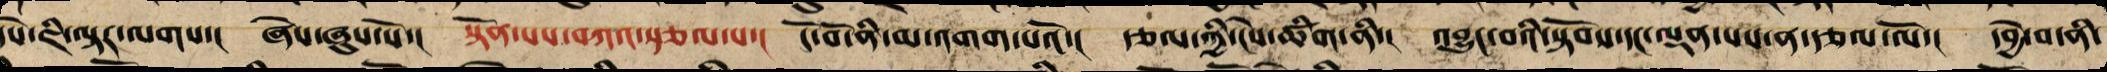དཔེ་ཇི་ལྟར་ལགས་། ཞེས་ཞུས་སོ་། སྟོན་པས་བཀའ་སྩལ་པ་། ངོ་བོ་ནི་མ་འགགས་པའོ་། རྩལ་ཀྱི་ངེས་ཚིག་ནི་། འབྱུང་བའི་སྟོབས་དང་ལྡན་པས་ན་རྩལ་ལོ་། དབྱེ་བ་ནི་
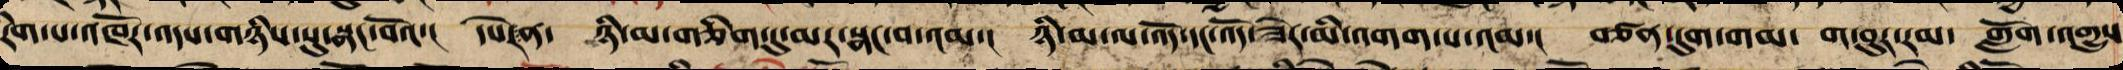རིག་པ་འཁོར་འདས་གཉིས་སུ་སྣང་བའོ་། དཔེར་ན་ ཉི་མ་གཅིག་དུ་མར་སྣང་བ་འམ་། ཉི་མ་ལ་འོད་དང་འོད་ཟེར་མི་འགག་པ་འམ་། བཙན་དུག་གམ་ ག་བུར་རམ་ གློག་འགྱུས་
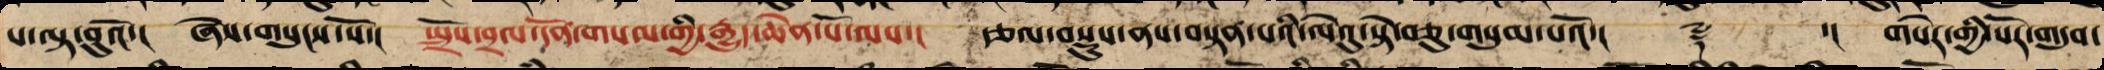པ་ལྟ་བུའོ་། ཞེས་གསུངས་སོ་། སྤྲོས་བྲལ་དོན་གསལ་གྱི་རྒྱུད་ཆེན་པོ་ལས་། རྩལ་བསྡུས་ནས་བསྟན་པའི་ལེའུ་སྟེ་བཅུ་གསུམ་པའོ་།། ༈ ་།། གསེར་གྱི་སོར་གདུབ་
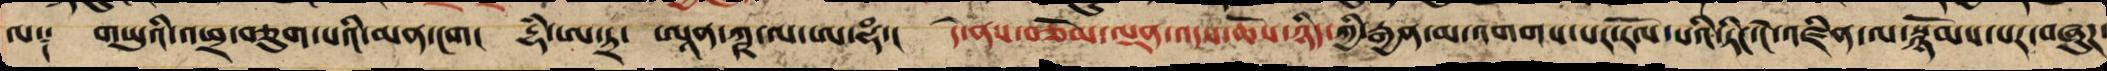ལ༑ གཡུའི་ཕྲ་བཅུག་པའི་མན་ངག། དྷཾ་ཨ་ཏྲ་ ཨཱན་ཀྵ་ལ་ཨ་ཧཾ་། དེ་ནས་བཅོམ་ལྡན་འདས་ཆོས་ཉིད་ཀྱི་རྒྱན་མ་འགགས་པར་རོལ་པའི་ཏིང་ངེ་འཛིན་ལ་སྙོམས་པར་ཞུཌ་
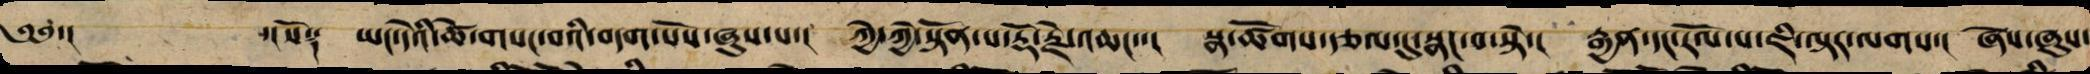༄༅་།  ་།སོ༑ ཡང་དེའི་ཚེ་གསང་བའི་བདག་པོས་ཞུས་པ་། ཀྱེ་ཀྱེ་སྟོན་པ་ཀུན་བཟང་རྡོ་རྗེ་འཆང་་། སྣ་ཚོགས་རྩལ་དུ་སྣང་བ་སྟེ་། རྒྱན་དང་རོལ་པ་ཇི་ལྟར་ལགས་། ཞེས་ཞུས་
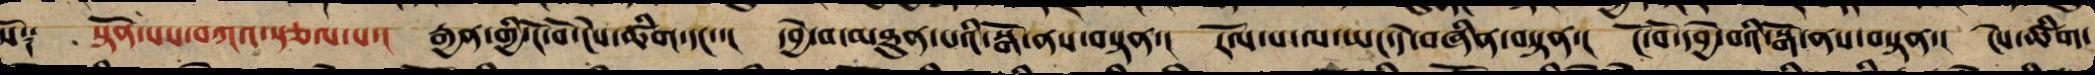སོ༑ སྟོན་པས་བཀའ་སྩལ་པ་། རྒྱན་གྱི་ངོ་བོ་ངེས་ཚིག་དང་་། དབྱེ་བ་མཐུན་པའི་སྒོ་ནས་བསྟན་། རོལ་པ་ལ་ཡང་དེ་བཞིན་བསྟན་། ངོ་བོ་དབྱེ་བའི་སྒོ་ནས་བསྟན་། ངེས་ཚིག་
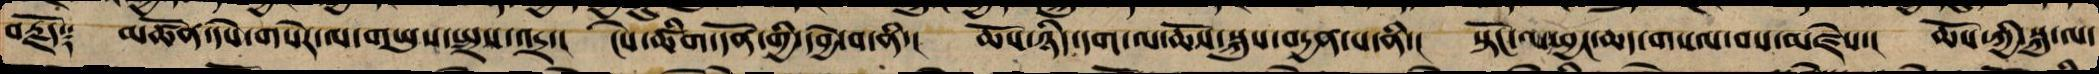བརྗོད༑ མཚོན་དཔེ་གསེར་ལ་གཡུས་སྤྲས་འདྲ་། ངེས་ཚིག་དོན་གྱི་དབྱེ་བ་ནི་། ཆོས་ཉིད་དག་ལ་ཆོས་སྐུས་བདྱན་པ་ནི་། སྟོང་ལ་ཕྱང་ཆད་གསལ་བས་མཛེས་། ཆོས་ཀྱི་སྐུ་ལ་
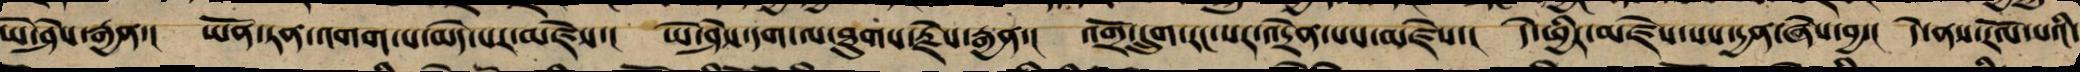ཡེ་ཤེས་རྒྱན་། ཡོན་ཏན་འགག་པ་མེད་པར་མཛེས་། ཡེ་ཤེས་གསལ་ལ་ཐུགས་རྗེས་རྒྱན་། འགྲོ་དྲུག་རང་སར་འདྲེན་པས་མཛེས་། དེ་ཕྱིར་མཛེས་པས་དྱན་ཞེས་བྱ་། དེ་ནས་རོལ་པའི་
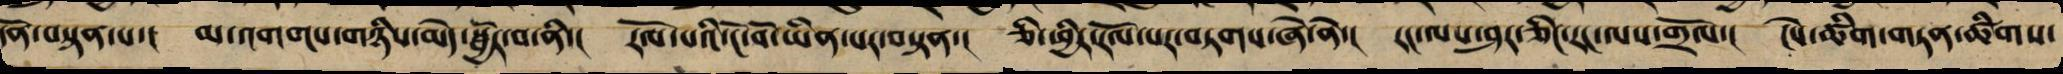དོན་བསྟན་པ་། མ་འགགས་གཉིས་མེད་སྦྱོར་བ་ནི་། རོལ་པའི་ངོ་བོ་ཡིན་པར་བསྟན་། ཅི་ཕྱིར་རོལ་པར་བཏགས་ཞེ་ན་། རང་ལས་ཤར་ཞིང་རང་ལས་གྲོལ་། ངེས་ཚིག་གཏན་ཚིགས་
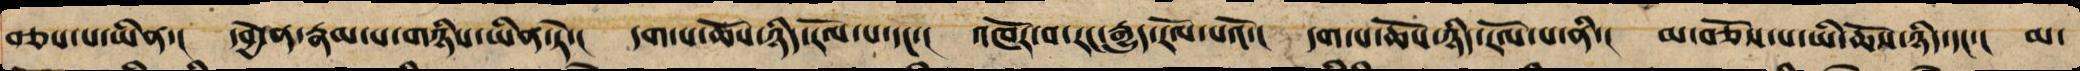བཅས་པ་ཡིན་། དབྱེ་ན་རྣམ་པ་གཉིས་ཡིན་ཏེ་། དག་པ་ཆོས་ཉིད་རོལ་པ་དང་། འཁོར་བ་རང་རྒྱུད་རོལ་པའོ་། དག་པ་ཆོས་ཉིད་རོལ་པ་ནི་། མ་བཅོས་པ་ཡི་ཆོས་ཉིད་དང་། མ་
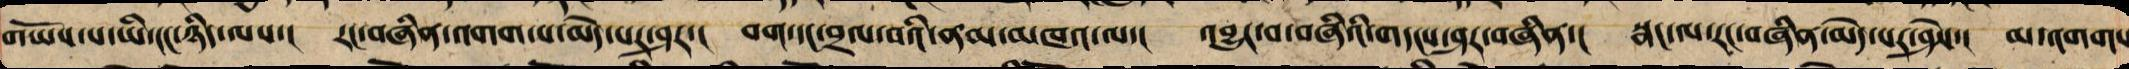གཡོས་པ་ཡི་ངང་ཉིད་ལས་། རང་བཞིན་འགག་པ་མེད་པར་ཤར་། བག་དང་བྲལ་བའི་ནམ་མཁའ་ལ་། འབྱུང་བ་བཞིའི་གདངས་ཤར་བཞིན་། སྣང་ལ་རང་བཞིན་མེད་པར་ཤེས་། མ་འགགས
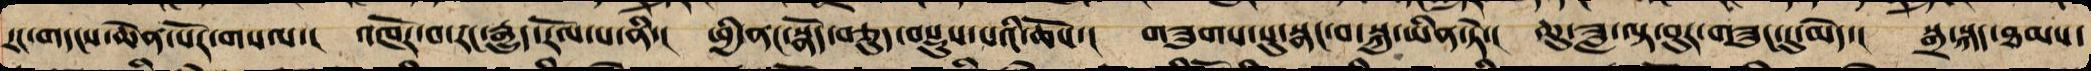རང་གདངས་ཆེན་པོར་གསལ་། འཁོར་བ་རང་རྒྱུད་རོལ་པ་ནི་། ཕྱི་ནང་སྣོད་བཅུད་བསྡུས་པའི་ཆོས་། གཟུགས་སུ་སྣང་བ་སྐུ་ཡིན་ཏེ་། ཆུ་ཟླ་ལྟ་བུར་གཟུང་དུ་མེད་། སྒྲ་སྐད་ཐམས་
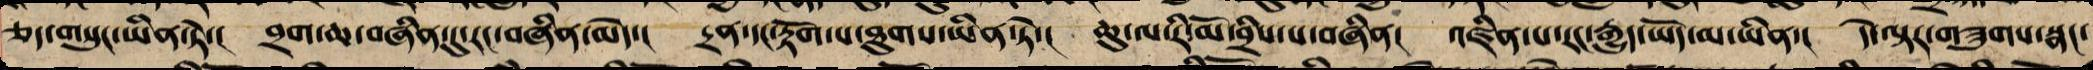ཅད་གསུང་ཡིན་ཏེ་། བྲག་ཆ་བཞིན་དུ་རང་བཞིན་མེད་། དྲན་དང་རྟོག་པ་ཐུགས་ཡིན་ཏེ་། ཆུ་ལ་རི་མོ་བྲིས་པ་བཞིན། འཛིན་པ་རང་རྒྱུད་ཡོད་མ་ཡིན་། དེ་ལྟར་གཟུགས་སྣང་
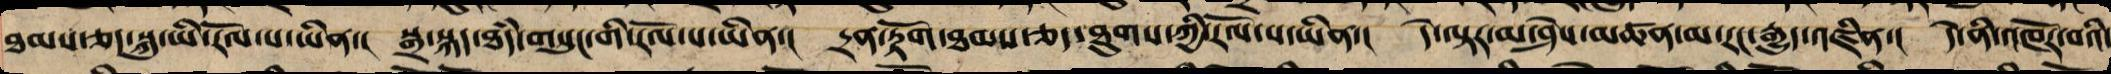ཐམས་ཅད་སྐུ་ཡི་རོལ་པ་ཡིན་། སྒྲ་སྐད་ཐཾད་གསུང་གི་རོལ་པ་ཡིན་། དྲན་རྟོག་ཐམས་ཅད་ཐུགས་ཀྱི་རོལ་པ་ཡིན་། དེ་ལྟར་མ་ཤེས་མཚན་མ་རང་རྒྱུད་འཛིན་། དེ་ནི་འཁོར་བའི་
